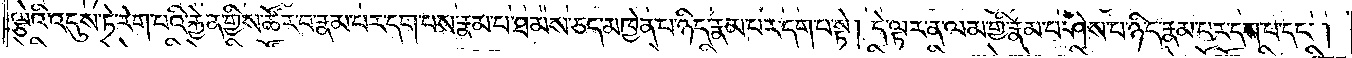ལྕེའི་འདུས་ཏེ་རེག་པའི་རྐྱེན་གྱིས་ཚོར་བ་རྣམ་པར་དག་པས་རྣམ་པ་ཐམས་ཅད་མཁྱེན་པ་ཉིད་རྣམ་པར་དག་པ་སྟེ། དེ་ལྟར་ན་ལམ་གྱི་རྣམ་པ་ཤེས་པ་ཉིད་རྣམ་པར་དག་པ་དང༌།
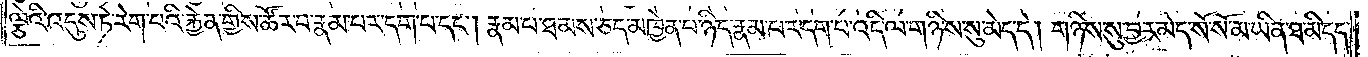ལྕེའི་འདུས་ཏེ་རེག་པའི་རྐྱེན་གྱིས་ཚོར་བ་རྣམ་པར་དག་པ་དང༌། རྣམ་པ་ཐམས་ཅད་མཁྱེན་པ་ཉིད་རྣམ་པར་དག་པ་འདི་ལ་གཉིས་སུ་མེད་དེ། གཉིས་སུ་བྱར་མེད་སོ་སོ་མ་ཡིན་ཐ་མི་དད་
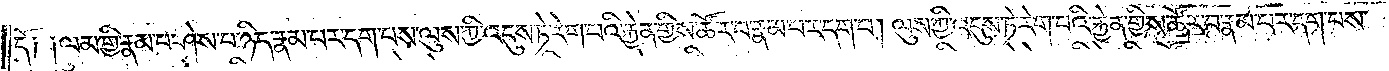དོ༑ ༑ལམ་གྱི་རྣམ་པ་ཤེས་པ་ཉིད་རྣམ་པར་དག་པས་ལུས་ཀྱི་འདུས་ཏེ་རེག་པའི་རྐྱེན་གྱིས་ཚོར་བ་རྣམ་པར་དག་པ། ལུས་ཀྱི་འདུས་ཏེ་རེག་པའི་རྐྱེན་གྱིས་ཚོར་བ་རྣམ་པར་དག་པས་
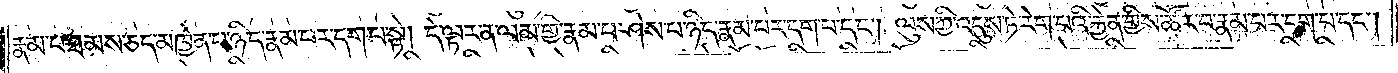རྣམ་པ་ཐམས་ཅད་མཁྱེན་པ་ཉིད་རྣམ་པར་དག་པ་སྟེ། དེ་ལྟར་ན་ལམ་གྱི་རྣམ་པ་ཤེས་པ་ཉིད་རྣམ་པར་དག་པ་དང༌། ལུས་ཀྱི་འདུས་ཏེ་རེག་པའི་རྐྱེན་གྱིས་ཚོར་བ་རྣམ་པར་དག་པ་དང༌།
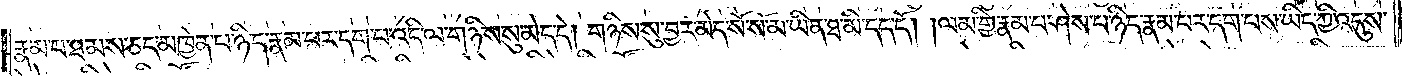རྣམ་པ་ཐམས་ཅད་མཁྱེན་པ་ཉིད་རྣམ་པར་དག་པ་འདི་ལ་གཉིས་སུ་མེད་དེ། གཉིས་སུ་བྱར་མེད་སོ་སོ་མ་ཡིན་ཐ་མི་དད་དོ། །ལམ་གྱི་རྣམ་པ་ཤེས་པ་ཉིད་རྣམ་པར་དག་པས་ཡིད་ཀྱི་འདུས་
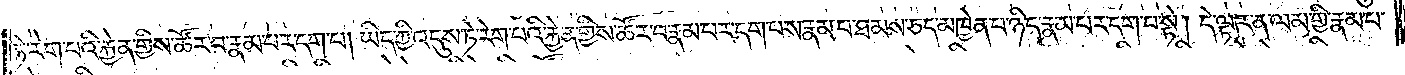ཏེ་རེག་པའི་རྐྱེན་གྱིས་ཚོར་བ་རྣམ་པར་དག་པ། ཡིད་ཀྱི་འདུས་ཏེ་རེག་པའི་རྐྱེན་གྱིས་ཚོར་བ་རྣམ་པར་དག་པས་རྣམ་པ་ཐམས་ཅད་མཁྱེན་པ་ཉིད་རྣམ་པར་དག་པ་སྟེ། དེ་ལྟར་ན་ལམ་གྱི་རྣམ་པ་
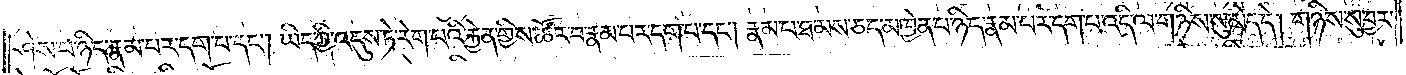ཤེས་པ་ཉིད་རྣམ་པར་དག་པ་དང༌། ཡིད་ཀྱི་འདུས་ཏེ་རེག་པའི་རྐྱེན་གྱིས་ཚོར་བ་རྣམ་པར་དག་པ་དང༌། རྣམ་པ་ཐམས་ཅད་མཁྱེན་པ་ཉིད་རྣམ་པར་དག་པ་འདི་ལ་གཉིས་སུ་མེད་དེ། གཉིས་སུ་བྱར་
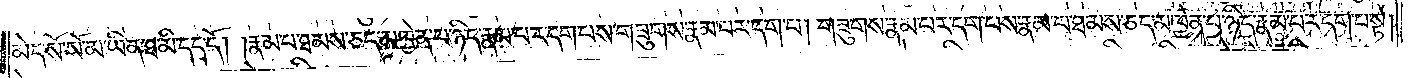མེད་སོ་སོ་མ་ཡིན་ཐ་མི་དད་དོ། །རྣམ་པ་ཐམས་ཅད་མཁྱེན་པ་ཉིད་རྣམ་པར་དག་པས་གཟུགས་རྣམ་པར་དག་པ། གཟུགས་རྣམ་པར་དག་པས་རྣམ་པ་ཐམས་ཅད་མཁྱེན་པ་ཉིད་རྣམ་པར་དག་པ་སྟེ།
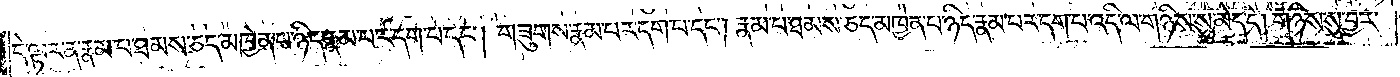དེ་ལྟར་ན་རྣམ་པ་ཐམས་ཅད་མཁྱེན་པ་ཉིད་རྣམ་པར་དག་པ་དང༌། གཟུགས་རྣམ་པར་དག་པ་དང༌། རྣམ་པ་ཐམས་ཅད་མཁྱེན་པ་ཉིད་རྣམ་པར་དག་པ་འདི་ལ་གཉིས་སུ་མེད་དེ། གཉིས་སུ་བྱར་
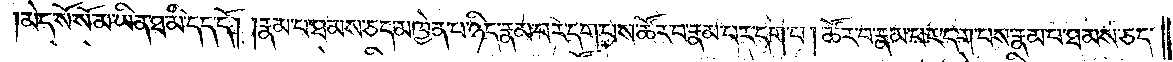མེད་སོ་སོ་མ་ཡིན་ཐ་མི་དད་དོ། །རྣམ་པ་ཐམས་ཅད་མཁྱེན་པ་ཉིད་རྣམ་པར་དག་པས་ཚོར་བ་རྣམ་པར་དག་པ། ཚོར་བ་རྣམ་པར་དག་པས་རྣམ་པ་ཐམས་ཅད་
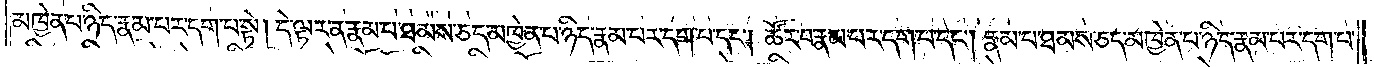མཁྱེན་པ་ཉིད་རྣམ་པར་དག་པ་སྟེ། དེ་ལྟར་ན་རྣམ་པ་ཐམས་ཅད་མཁྱེན་པ་ཉིད་རྣམ་པར་དག་པ་དང༌། ཚོར་བ་རྣམ་པར་དག་པ་དང༌། རྣམ་པ་ཐམས་ཅད་མཁྱེན་པ་ཉིད་རྣམ་པར་དག་པ་
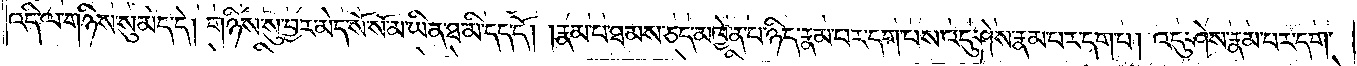འདི་ལ་གཉིས་སུ་མེད་དེ། གཉིས་སུ་བྱར་མེད་སོ་སོ་མ་ཡིན་ཐ་མི་དད་དོ། །རྣམ་པ་ཐམས་ཅད་མཁྱེན་པ་ཉིད་རྣམ་པར་དག་པས་འདུ་ཤེས་རྣམ་པར་དག་པ། འདུ་ཤེས་རྣམ་པར་དག་
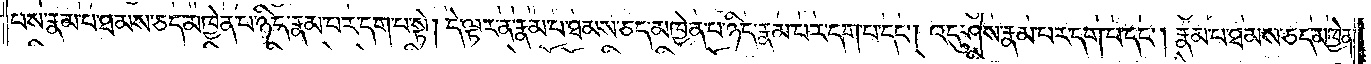པས་རྣམ་པ་ཐམས་ཅད་མཁྱེན་པ་ཉིད་རྣམ་པར་དག་པ་སྟེ། དེ་ལྟར་ན་རྣམ་པ་ཐམས་ཅད་མཁྱེན་པ་ཉིད་རྣམ་པར་དག་པ་དང༌། འདུ་ཤེས་རྣམ་པར་དག་པ་དང༌། རྣམ་པ་ཐམས་ཅད་མཁྱེན་
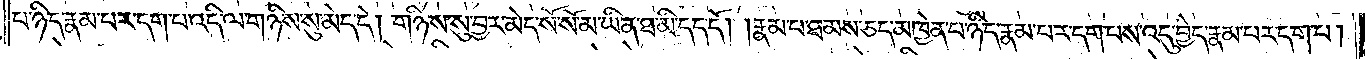པ་ཉིད་རྣམ་པར་དག་པ་འདི་ལ་གཉིས་སུ་མེད་དེ། གཉིས་སུ་བྱར་མེད་སོ་སོ་མ་ཡིན་ཐ་མི་དད་དོ། །རྣམ་པ་ཐམས་ཅད་མཁྱེན་པ་ཉིད་རྣམ་པར་དག་པས་འདུ་བྱེད་རྣམ་པར་དག་པ།
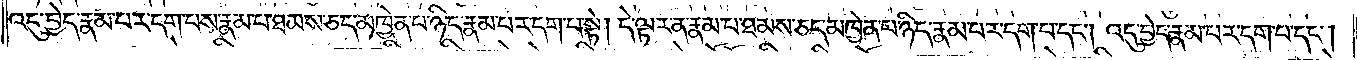འདུ་བྱེད་རྣམ་པར་དག་པས་རྣམ་པ་ཐམས་ཅད་མཁྱེན་པ་ཉིད་རྣམ་པར་དག་པ་སྟེ། དེ་ལྟར་ན་རྣམ་པ་ཐམས་ཅད་མཁྱེན་པ་ཉིད་རྣམ་པར་དག་པ་དང༌། འདུ་བྱེད་རྣམ་པར་དག་པ་དང༌།
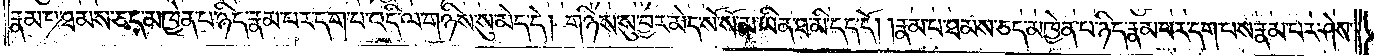རྣམ་པ་ཐམས་ཅད་མཁྱེན་པ་ཉིད་རྣམ་པར་དག་པ་འདི་ལ་གཉིས་སུ་མེད་དེ། གཉིས་སུ་བྱར་མེད་སོ་སོ་མ་ཡིན་ཐ་མི་དད་དོ། །རྣམ་པ་ཐམས་ཅད་མཁྱེན་པ་ཉིད་རྣམ་པར་དག་པས་རྣམ་པར་ཤེས་
